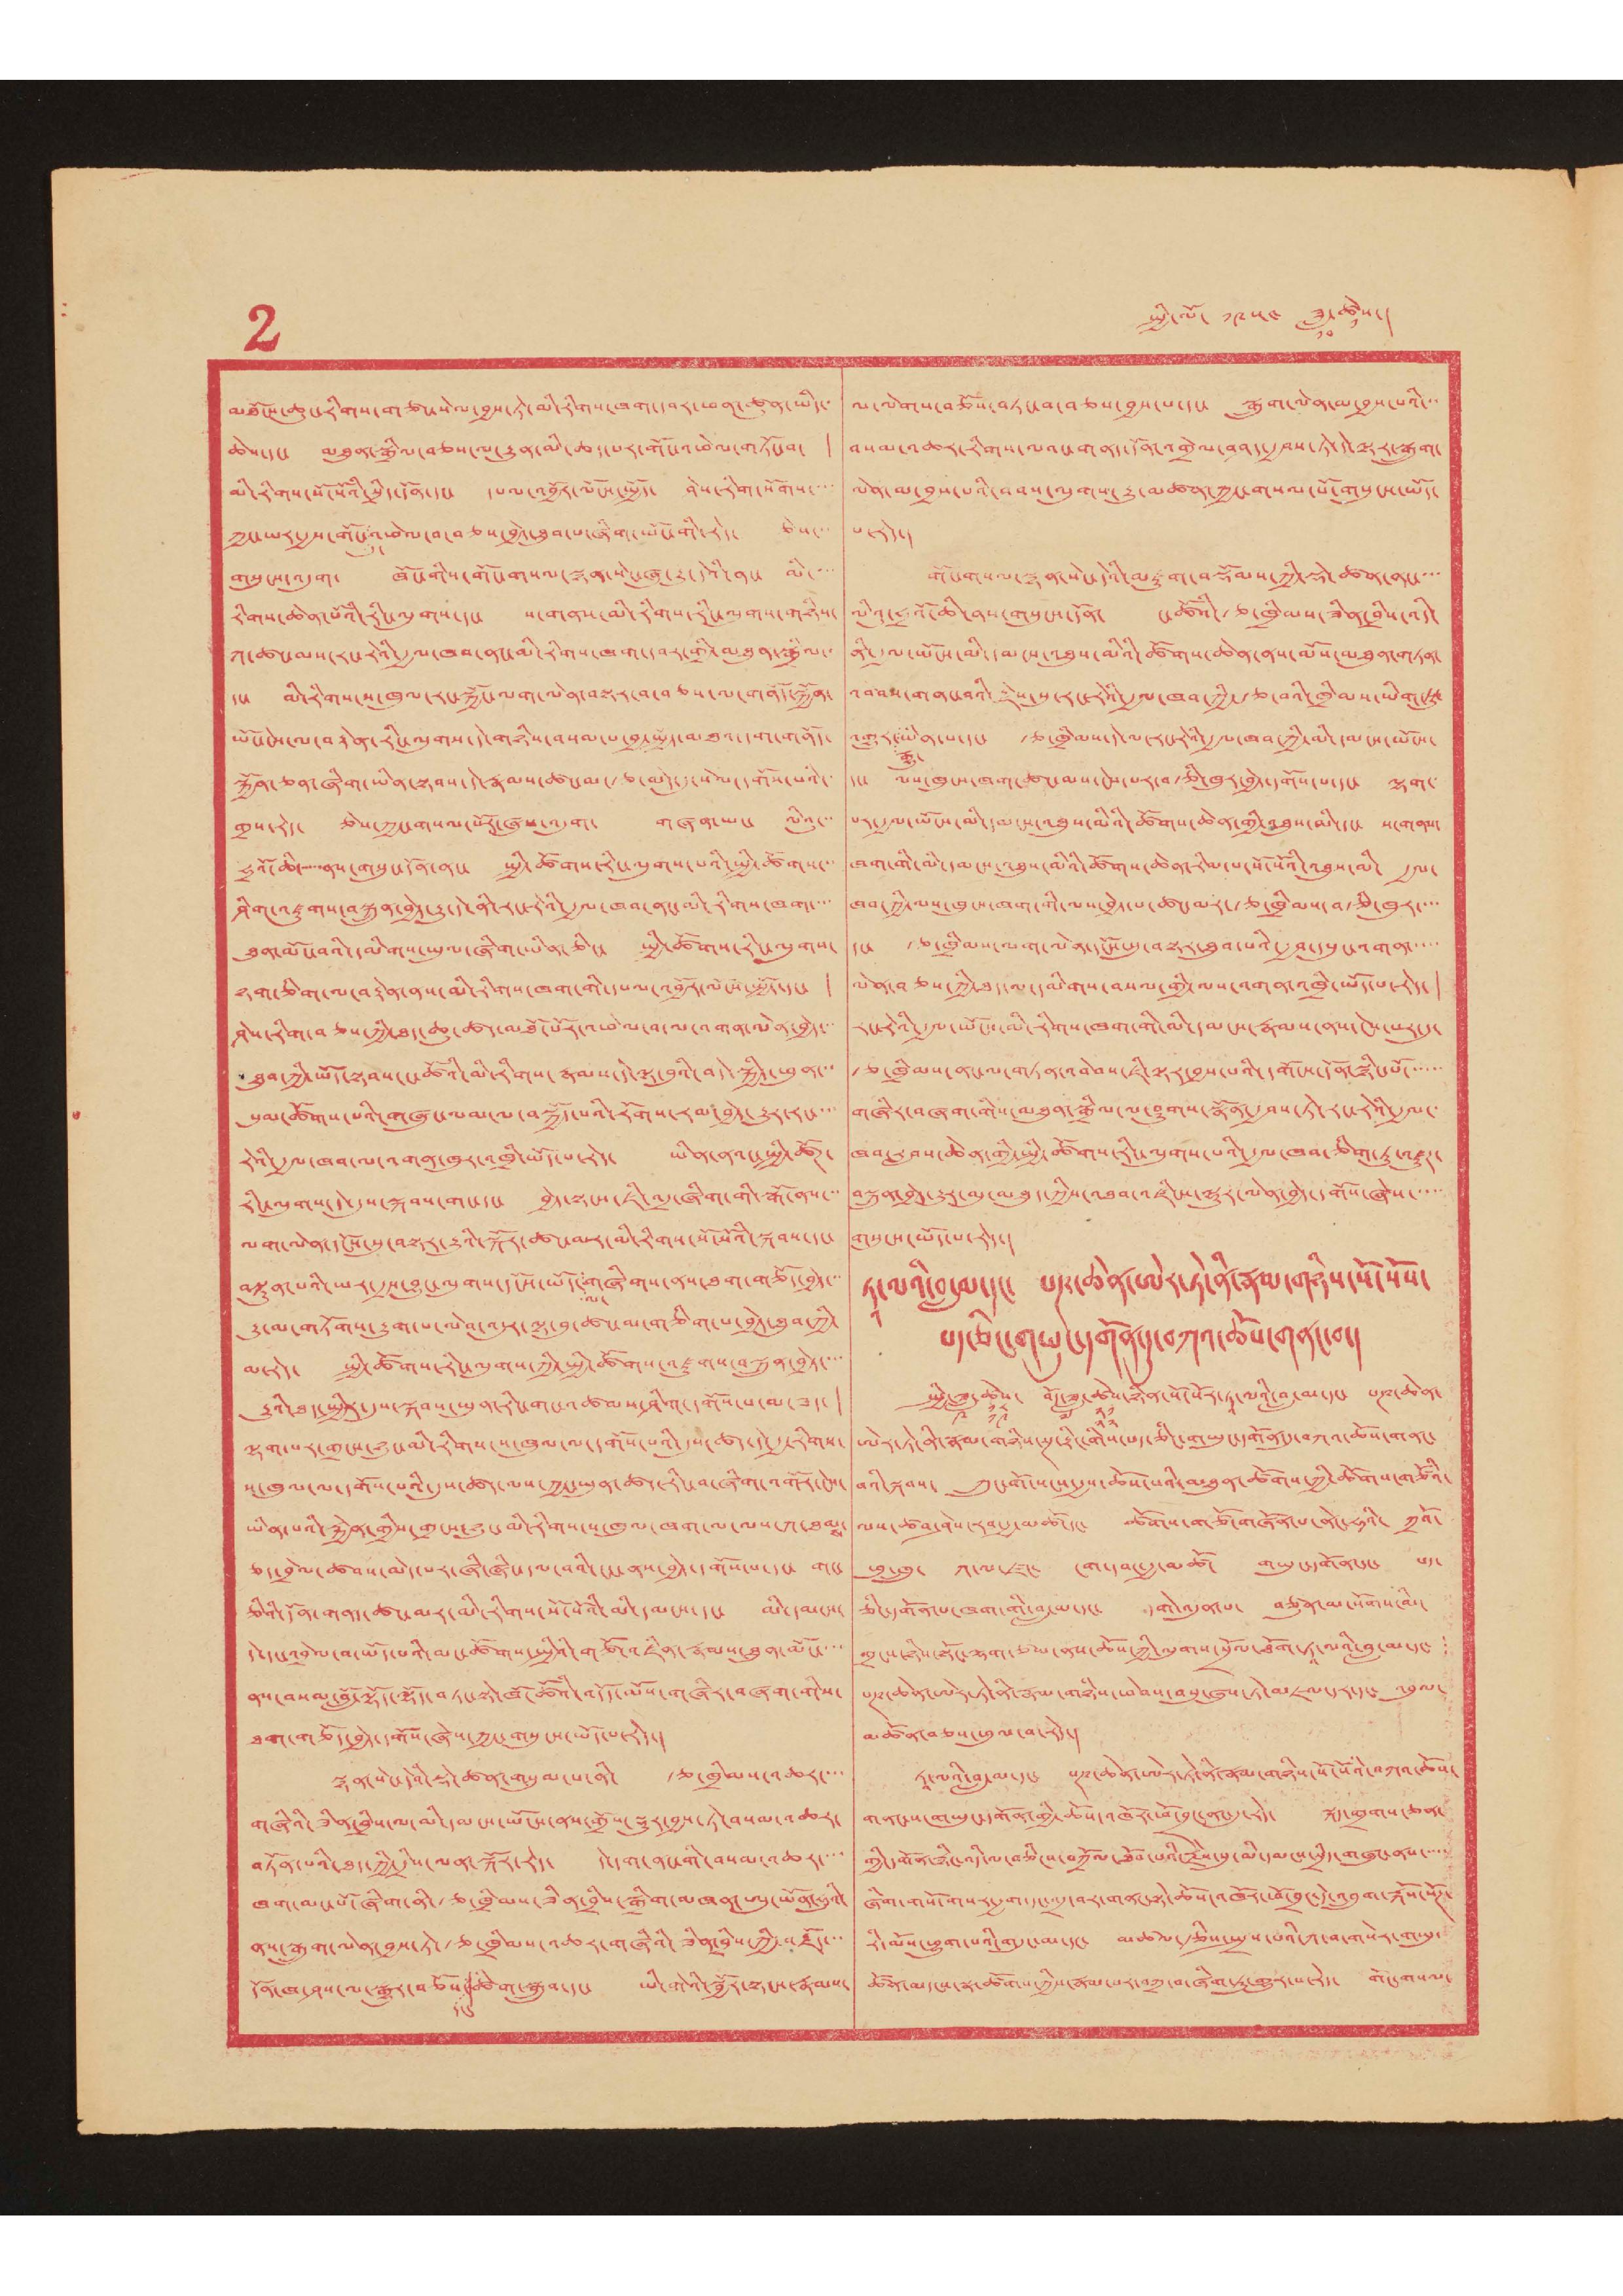2 སྤྱི་ལོ་ ༡༩༥༤ ཟླ་
༡༠
ཚེས་
༡
།
མཐོངས་ཆུང་རིགས་གཙང་སེལ་བྱས་ཏེ་མི་རིགས་ཁག་དབར་ཕན་ཚུན་ཡིད་
ཆེས་དང་ མཐུན་སྒྲིལ་བཅས་ལ་རྒྱུན་མི་ཆད་པར་གོང་འཕེལ་གཏོང་བ་
མི་རིགས་སོ་སོའི་སྲིད་དོན་དང་ དཔལ་འབྱོར་ལོངས་སྤྱོད་ ཤེས་རིགས་སོགས་་་་
ཀྱང་ཡར་རྒྱས་གོང་
དུ་
འཕེལ་བ་བཅས་བྱེད་ཐུབ་པ་ཞིག་ཡོང་གི་རེད་ ཅེས་
གསུངས་འདུག་ ཁོང་གིས་གོང་གསལ་སྙན་སེང་ཞུ་རྒྱུ་དེའི་ནང་ མི་་་་
རིགས་ཆེན་པོའི་རིང་ལུགས་དང་ ས་གནས་མི་རིགས་རིང་ལུགས་གཉིས་
ཀ་ཚང་མས་རང་རེའི་རྒྱལ་ཁབ་ནང་མི་རིགས་ཁག་དབར་གྱི་མཐུན་སྒྲིལ་
དང་ མི་རིགས་ས་ཁུལ་རང་སྐྱོང་ལག་ལེན་བསྟར་བ་བཅས་ལ་གནོད་སྐྱོན་
ཡོང་ངེས་ལ་བརྟེན་རིང་ལུགས་དེ་གཉིས་བསམ་པ་བྱ་སྤྱོད་མཐའ་དག་གནོད་
སྐྱོན་ཅན་ཞིག་ཡིན་སྟབས་དེ་རྣམས་ཚང་མ་རྩ་མེད་དུ་སེལ་དགོས་པའི་
གྲས་རེད་ ཅེས་ཀྱང་གསལ་པོར་ཞུས་འདུག་ གཞན་ཡང་ ལིའུ་་་
ཧྲའོ་ཆི་་་་་་ནས་གསུང་དོན་ནང་ སྤྱི་ཚོགས་རིང་ལུགས་པའི་སྤྱི་ཚོགས་་་
ཤིག་འཛུགས་བསྐྲུན་བྱེད་རྒྱུ་དེ་ནི་རང་རེའི་རྒྱལ་ཁབ་ནང་མི་རིགས་ཁག་་་་
ཐུན་མོང་བའི་དམིགས་ཡུལ་ཞིག་ཡིན་ཅིང་ སྤྱི་ཚོགས་རིང་ལུགས་
ཉག་ཅིག་ལ་བརྟེན་ནས་མི་རིགས་ཁག་གི་དཔལ་འབྱོར་ལོངས་སྤྱོད་དང་།
ཤེས་རིག་བཅས་ཀྱི་ཐད་ཆུ་ཚད་མཐོ་པོར་འཕེལ་བ་ལ་འགན་ལེན་བྱེད་་་
ཐུབ་ཀྱི་ཡོད་སྟབས་ང་ཚོའི་མི་རིགས་རྣམས་དེ་ལྟ་བུའི་བདེ་སྐྱིད་ཕུན་་
སུམ་ཚོགས་པའི་གཞུང་ལམ་ལ་བསྐྱོད་པའི་རོགས་རམ་བྱེད་རྒྱུར་རང་་་་
རེའི་རྒྱལ་ཁབ་ལ་འགན་ཁུར་འཁྲི་ཡོད་པ་རེད་ ཡིན་ནའང་སྤྱི་ཚོཊ་
རིང་ལུགས་དེ་དུས་སྐབས་གང་དང་ བྱེད་སྟངས་ཇི་འདྲ་ཞིག་གི་སྒོ་ནས་་་
ལག་ལེན་དངོས་སུ་བསྟར་རྒྱུའི་སྐོར་ཚང་མར་མི་རིགས་སོ་སོའི་སྐབས་དང་
བསྟུན་པའི་ཡར་རྒྱས་བྱུང་ལུགས་དངོས་ཡོད་
ལ་
གཞིགས་ནས་ཐག་གཅོད་བྱེད་་་
རྒྱུ་མ་གཏོགས་རྒྱུག་པ་ལེབ་འདུར་ལྟ་བུ་ཚང་མ་གཅིག་པ་བྱེད་ཐུབ་ཀྱི་
མ་རེད་ སྤྱི་ཚོགས་རིང་ལུགས་ཀྱི་སྤྱི་ཚོགས་འཛུགས་བསྐྲུན་བྱེད་་་་
རྒྱུའི་ཐད་སྤྱིར་དུས་སྐབས་ཡུན་རིང་གང་འཚམས་ཤིག་དགོས་པ་མ་ཟད་ །
ལྷག་པར་གྲངས་ཉུང་མི་རིགས་ས་ཁུལ་ལ་དགོས་པའི་དུས་ཚད་དེ་རྒྱ་རིགས་
ས་ཁུལ་ལ་དགོས་པའི་དུས་ཚད་ལས་ཀྱང་ཡུན་ཚད་རིང་བ་ཞིག་འགོར་ངེས་
ཡིན་པའི་རྐྱེན་གྱིས་གྲངས་ཉུང་མི་རིགས་ས་ཁུལ་ཁག་ལ་ལས་ཀ་ཐམྶ་
ཅད་བྲེལ་ཚབས་མེད་པར་ཞི་ཞིང་དལ་བའི་ངང་ནས་བྱེད་དགོས་པ་དང་ གང་
ཅིའི་དོན་གནད་ཚང་མར་མི་རིགས་སོ་སོའི་མི་དམངས་དང་ མི་དམངས་
དེ་དང་འབྲེལ་བ་ཡོད་པའི་མང་ཚོགས་སྤྱིའི་གཙོ་འཛིན་རྣམས་ཐུན་མོང་་་་
ནས་བསམ་བློ་ལྷོད་ལྷོད་བཏང་སྟེ་ཁོ་ཚོའི་འདོད་མོས་གཞིར་བཞག་གིས་
ཐག་གཅོད་བྱེད་དགོས་ཞེས་ཀྱང་གསུངས་ཡོད་པ་རེད་།
སྙན་སེང་དེའི་སྡེ་ཚན་གསུམ་པ་ནི་ རྩ་ཁྲིམས་འཆར་་་་
གཞིའི་ཟིན་བྲིས་ལ་མི་དམངས་ཡོངས་ནས་གྲོས་སྡུར་བྱས་ཏེ་བསམ་འཆར་
བཏོན་པའི་ཐད་ཀྱི་དྲིས་ལན་སྐོར་རེད་ དེ་དག་ནང་གི་བསམ་འཆར་་་་
ཁག་མང་པོ་ཞིག་ནི་རྩ་ཁྲིམས་ཟིན་བྲིས་སྒྲིག་མཁན་ཨུ་ཡོན་ཧུའི་
ནས་སྒྲུག་ལེན་བྱས་ཏེ་རྩ་ཁྲིམས་འཆར་གཞིའི་ཟིན་བྲིས་ཀྱི་བརྗོད་་་
དོན་ཁག་ཤས་ལ་སྒྱུར་བཅོས་
དང་
ཚིག་སྒྲུབ་དང་ ཡི་གེའི་སྦྱོར་སྟངས་རྣམས་
ལ་ལེགས་བཅོས་བཏང་བ་བཅས་བྱས་པ་དང་ སྒྲུག་ལེན་མ་བྱས་པའི་་་
བསམ་འཆར་རིགས་ལའང་གནད་དོན་འགྲེལ་བཤད་རྒྱབས་ཏེ་དེ་ལྟར་སྒྲུག་
ལེན་མ་བྱས་པའི་བབས་ལུགས་རྒྱུ་མཚན་ཀྱང་གསལ་པོ་གསུངས་ཡོད་
པ་རེད་།
གོང་གསལ་སྙན་སེང་དེའི་མཇུག་བསྡོམས་ཀྱི་ལྡེ་ཚན་ནང་་་་
ལིའུ་ཧྲའོ་ཆི་ནས་གསུངས་དོན་ ང་ཚོའི་ཙ་ཁྲིམས་ཟིན་བྲིས་འདི་
ནི་རྒྱལ་ཡོངས་མི་དམངས་འཐུས་མིའི་ཚོགས་ཆེན་ནས་མོས་མཐུན་གཏན་
འབབས་གནང་བའི་རྗེས་སུ་རང་རེའི་རྒྱལ་ཁབ་ཀྱི་རྩ་བའི་ཁྲིམས་ཡིག་ཏུ་
འགྱུར་
རྒྱུ་
ཡིན་པ་དང་ རྩ་ཁྲིམས་དེ་ལ་རང་རེའི་རྒྱལ་ཁབ་ཀྱི་མི་དམངས་ཡོངས་
དང་ ལས་ཁུངས་ཁག་ཚང་མས་ངེས་པར་བརྩི་ཁུར་བྱེད་དགོས་པ་དང་ ལྷག་
པར་རྒྱལ་ཡོངས་མི་དམངས་འཐུས་མིའི་ཚོགས་ཆེན་གྱི་འཐུས་མི་དང་ ས་གནས་
ཁག་གི་མི་དམངས་འཐུས་མིའི་ཚོགས་ཆེན་རིམ་པ་སོ་སོའི་འཐུས་མི་ རྒྱལ་
ཁབ་ཀྱི་ལས་ཁུངས་ཁག་གི་ལས་བྱེད་པ་ཚང་མར་རྩ་ཁྲིམས་བརྩི་ཁུར་་་་
དང་ རྩ་ཁྲིམས་ལག་ལེན་དངོས་སུ་བསྟར་ཐུབ་པའི་རྒྱབ་དཔུང་འགན་་་་་
ལེན་བཅས་ཀྱི་ཐད་ལ་དམིགས་བསལ་གྱི་ལས་འགན་འཁྲི་ཡོད་པ་རེད་
རང་རེའི་རྒྱལ་ཡོངས་མི་རིགས་ཁག་གི་མི་དམངས་རྣམས་ནས་ངེས་པར་དུ་
རྩ་ཁྲིམས་ནང་ལ་གཏན་འབེབས་ཇི་ལྟར་བྱས་པའི་དགོངས་དོན་སྙིང་པོ་་་་་་
གཞིར་བཞག་གིས་མཐུན་སྒྲིལ་ལ་ཤུགས་སྣོན་རྒྱབས་ཏེ་རང་རེའི་རྒྱལ་
ཁབ་རླབས་ཆེན་གྱི་སྤྱི་ཚོགས་རིང་ལུགས་པའི་རྒྱལ་ཁབ་ཅིག་ཏུ་འཛུཊ་
བསྐྲུན་བྱེད་རྒྱུར་མུ་མཐུད་ཀྱིས་འཐབ་འཛིངས་ལྷུར་ལེན་བྱེད་དགོས་ཞེས་་་་་
གསུངས་ཡོད་པ་རེད་།
ཏཱ་ལའི་བླ་མ་དང་ པཎ་ཆེན་ཨེར་ཏེ་ནི་རྣམ་གཉིས་སོ་སོས་
པད་ཅིང་གཡུང་དགོན་དུ་བཀའ་ཆོས་གནང་བ་།
སྤྱི་ཟླ་
༩
ཚེས་
༡༨
༡༩
བོད་ཟླ་
༧
ཚེས་
༢༡
༢༢
ཉིན་སོ་སོར་ཏཱ་ལའི་བླ་མ་དང་ པཎ་ཆེན་
ཨེར་ཏེ་ནི་རྣམ་གཉིས་སྔ་རྟིང་གིས་པད་ཅིང་གཡུང་དགོན་དུ་བཀའ་ཆོས་གནང་
བའི་སྐབས་ ཀྲུང་གོ་སངས་རྒྱས་ཆོས་པའི་མཐུན་ཚོགས་ཀྱི་ཚོགས་གཙོའོ་
ལས་ཚབ་ཤེས་རབ་རྒྱ་མཚོ་དང་ ཚོགས་གཙོ་གཞོན་པ་ནེང་ཧའི་ ཀྲའོ་
ཕུ་ཁྲུ་ ཀ་ལ་ཛང་ ངག་དབང་རྒྱ་མཚོ་ གཡུང་དགོན་དང་ པད་
ཅིང་དགོན་པ་ཁག་གི་བླ་མ་དང་ དགེ་འདུན་པ་ བཙུན་མ་སོགས་མི་
གྲངས་ཉིས་སྟོང་ལྷག་ཙམ་ནས་ཆོས་ཀྱི་ལུགས་སྲོལ་ཐོག་ཏཱ་ལའི་བླ་མ་དང་
པཎ་ཆེན་ཨེར་ཏེ་ནི་རྣམ་གཉིས་ཕེབས་བསུ་ཞུས་ཏེ་མཇལ་དར་ འབུལ་
མཚོན་བཅས་ཕུལ་བ་རེད་།
ཏཱ་ལའི་བླ་མ་དང་ པཎ་ཆེན་ཨེར་ཏེ་ནི་རྣམ་གཉིས་སོ་སོའི་བཀའ་ཆོས་
གནང་ས་གཡུང་དགོན་གྱི་ཆོས་འཁོར་ཕོ་བྲང་ནང་དུ་རེད་ སྐད་གྲགས་ཅན་
གྱི་དགོན་རྙིང་འདི་ལ་བཅིངས་བཀྲོལ་ཐོབ་པའི་རྗེས་སུ་མི་དམངས་སྲིད་གཞུང་ནས་་་་་
ཞིག་གསོ་གསར་རྒྱག་དང་འདྲ་བར་གནང་སྟེ་ཆོས་འཁོར་ཕོ་བྲང་དེ་འབྲུག་རྐོས་སོཊ་
རི་མོས་ཕྱུག་པའི་གདུང་མ་དང་ མཚལ་རྩིས་སྤྲས་པའི་ཀ་བ་གསེར་གཡུ་
ཚོན་མདངས་སྣ་ཚོགས་ཀྱིས་རྣམ་པར་བཀྲ་བ་ཞིག་ཏུ་གྱུར་པ་རེད་ གོང་གསལ་
